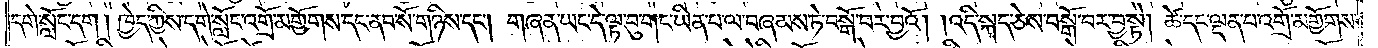དགེ་སློང་དག། ཁྱེད་ཀྱིས་དགེ་སློང་འགྲོ་མགྱོགས་དང་ནབ་སོ་གཉིས་དང༌། གཞན་ཡང་དེ་ལྟ་བུ་གང་ཡིན་པ་ལ་བཞམས་ཏེ་བསྒོ་བར་བྱའོ། །འདི་སྐད་ཅེས་བསྒོ་བར་བྱ་སྟེ། ཚེ་དང་ལྡན་པ་འགྲོ་མགྱོགས་
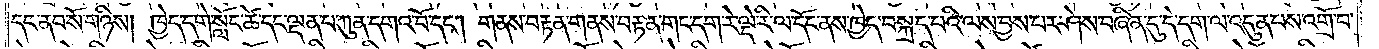དང་ནབ་སོ་གཉིས། ཁྱེད་དགེ་སློང་ཚེ་དང་ལྡན་པ་ཀུན་དགའ་བོ་དང༌། གནས་བརྟན་གནས་བརྟན་གང་དག་རེ་ལྡེ་རི་ལ་དོང་ནས་ཁྱེད་བསྐྲད་པའི་ལས་བྱས་པར་ཤེས་བཞིན་དུ་དེ་དག་ལ་འདུན་པས་འགྲོ་བ་
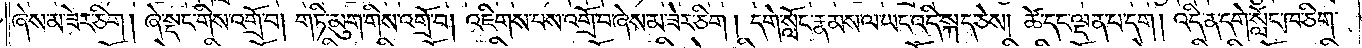ཞེས་མ་ཟེར་ཅིག །ཞེ་སྡང་གིས་འགྲོ་བ། གཏི་མུག་གིས་འགྲོ་བ། འཇིགས་པས་འགྲོ་བ་ཞེས་མ་ཟེར་ཅིག །དགེ་སློང་རྣམས་ལ་ཡང་འདི་སྐད་ཅེས། ཚེ་དང་ལྡན་པ་དག །འདི་ན་དགེ་སློང་ཁ་ཅིག་
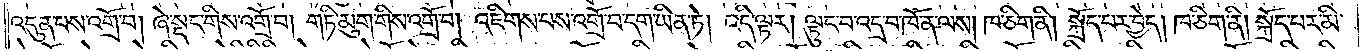འདུན་པས་འགྲོ་བ། ཞེ་སྡང་གིས་འགྲོ་བ། གཏི་མུག་གིས་འགྲོ་བ། འཇིགས་པས་འགྲོ་བ་དག་ཡིན་ཏེ། འདི་ལྟར། ལྟུང་བ་འདྲ་བ་ཁོ་ན་ལས། ཁ་ཅིག་ནི། སྐྲོད་པར་བྱེད། ཁ་ཅིག་ནི། སྐྲོད་པར་མི་
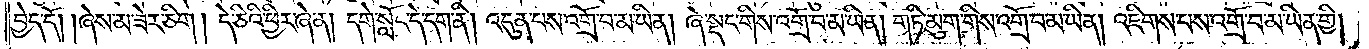བྱེད་དོ། །ཞེས་མ་ཟེར་ཅིག །དེ་ཅིའི་ཕྱིར་ཞེ་ན། དགེ་སློང་དེ་དག་ནི། འདུན་པས་འགྲོ་བ་མ་ཡིན། ཞེ་སྡང་གིས་འགྲོ་བ་མ་ཡིན། གཏི་མུག་གིས་འགྲོ་བ་མ་ཡིན། འཇིགས་པས་འགྲོ་བ་མ་ཡིན་གྱི།
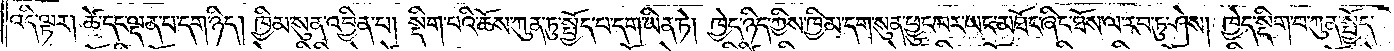འདི་ལྟར། ཚེ་དང་ལྡན་པ་དག་ཉིད། ཁྱིམ་སུན་འབྱིན་པ། སྡིག་པའི་ཆོས་ཀུན་ཏུ་སྤྱོད་པ་དག་ཡིན་ཏེ། ཁྱེད་ཉིད་ཀྱིས་ཁྱིམ་དག་སུན་ཕྱུང་བར་ཡང་མཐོང་ཞིང་ཐོས་ལ་རབ་ཏུ་ཤེས། ཁྱེད་སྡིག་པ་ཀུན་སྤྱོད་
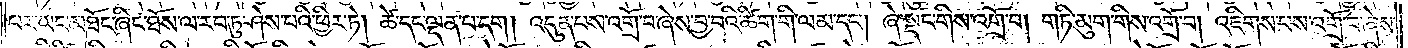པར་ཡང་མཐོང་ཞིང་ཐོས་ལ་རབ་ཏུ་ཤེས་པའི་ཕྱིར་ཏེ། ཚེ་དང་ལྡན་པ་དག། འདུན་པས་འགྲོ་བ་ཞེས་བྱ་བའི་ཚིག་གི་ལམ་དང༌། ཞེ་སྡང་གིས་འགྲོ་བ། གཏི་མུག་གིས་འགྲོ་བ། འཇིགས་པས་འགྲོ་བ་ཞེས་
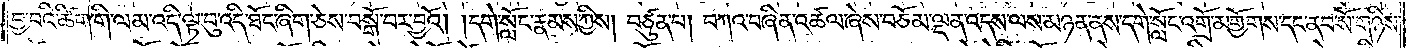བྱ་བའི་ཚིག་གི་ལམ་འདི་ལྟ་བུ་འདི་ཐོང་ཞིག་ཅེས་བསྒོ་བར་བྱའོ། །དགེ་སློང་རྣམས་ཀྱིས། བཙུན་པ། བཀའ་བཞིན་འཚལ་ཞེས་བཅོམ་ལྡན་འདས་ལས་མཉན་ནས་དགེ་སློང་འགྲོ་མགྱོགས་དང་ནབ་སོ་གཉིས་
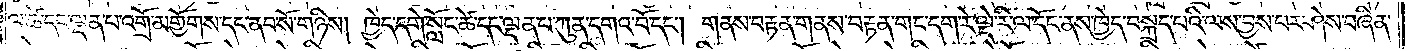ལ་ཚེ་དང་ལྡན་པ་འགྲོ་མགྱོགས་དང་ནབ་སོ་གཉིས། ཁྱེད་དགེ་སློང་ཚེ་དང་ལྡན་པ་ཀུན་དགའ་བོ་དང༌། གནས་བརྟན་གནས་བརྟན་གང་དག་རེ་ལྡེ་རི་ལ་དོང་ནས་ཁྱེད་བསྐྲད་པའི་ལས་བྱས་པར་ཤེས་བཞིན་
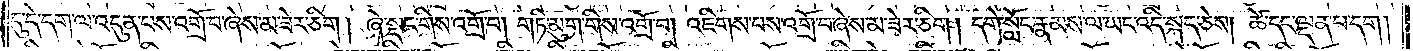དུ་དེ་དག་ལ་འདུན་པས་འགྲོ་བ་ཞེས་མ་ཟེར་ཅིག། ཞེ་སྡང་གིས་འགྲོ་བ། གཏི་མུག་གིས་འགྲོ་བ། འཇིགས་པས་འགྲོ་བ་ཞེས་མ་ཟེར་ཅིག། དགེ་སློང་རྣམས་ལ་ཡང་འདི་སྐད་ཅེས། ཚེ་དང་ལྡན་པ་དག།
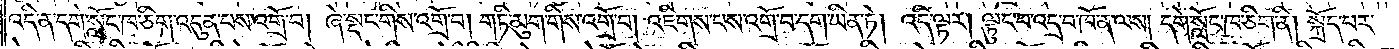འདི་ན་དགེ་སློང་ཁ་ཅིག་འདུན་པས་འགྲོ་བ། ཞེ་སྡང་གིས་འགྲོ་བ། གཏི་མུག་གིས་འགྲོ་བ། འཇིགས་པས་འགྲོ་བ་དག་ཡིན་ཏེ། འདི་ལྟར། ལྟུང་བ་འདྲ་བ་ཁོ་ན་ལས། དགེ་སློང་ཁ་ཅིག་ནི། སྐྲོད་པར་
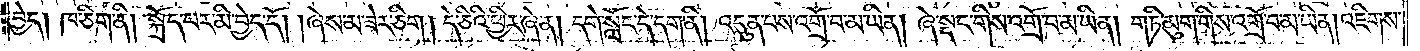བྱེད། ཁ་ཅིག་ནི། སྐྲོད་པར་མི་བྱེད་དོ། །ཞེས་མ་ཟེར་ཅིག །དེ་ཅིའི་ཕྱིར་ཞེ་ན། དགེ་སློང་དེ་དག་ནི། འདུན་པས་འགྲོ་བ་མ་ཡིན། ཞེ་སྡང་གིས་འགྲོ་བ་མ་ཡིན། གཏི་མུག་གིས་འགྲོ་བ་མ་ཡིན། འཇིགས་
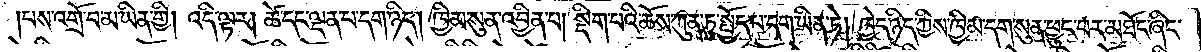པས་འགྲོ་བ་མ་ཡིན་གྱི། འདི་ལྟར། ཚེ་དང་ལྡན་པ་དག་ཉིད། ཁྱིམ་སུན་འབྱིན་པ། སྡིག་པའི་ཆོས་ཀུན་ཏུ་སྤྱོད་པ་དག་ཡིན་ཏེ། ཁྱེད་ཉིད་ཀྱིས་ཁྱིམ་དག་སུན་ཕྱུང་བར་མཐོང་ཞིང་
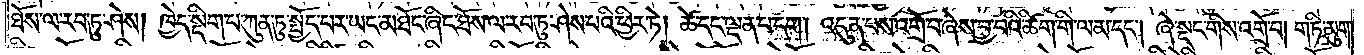ཐོས་ལ་རབ་ཏུ་ཤེས། ཁྱེད་སྡིག་པ་ཀུན་ཏུ་སྤྱོད་པར་ཡང་མཐོང་ཞིང་ཐོས་ལ་རབ་ཏུ་ཤེས་པའི་ཕྱིར་ཏེ། ཚེ་དང་ལྡན་པ་དག། འདུན་པས་འགྲོ་བ་ཞེས་བྱ་བའི་ཚིག་གི་ལམ་དང༌། ཞེ་སྡང་གིས་འགྲོ་བ། གཏི་མུག་
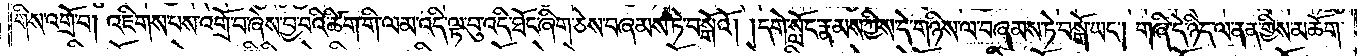གིས་འགྲོ་བ། འཇིགས་པས་འགྲོ་བ་ཞེས་བྱ་བའི་ཚིག་གི་ལམ་འདི་ལྟ་བུ་འདི་ཐོང་ཞིག་ཅེས་བཞམས་ཏེ་བསྒོའོ། །དགེ་སློང་རྣམས་ཀྱིས་དེ་གཉིས་ལ་བཞམས་ཏེ་བསྒོ་ཡང༌། གཞི་དེ་ཉིད་ལ་ནན་གྱིས་མཆོག་
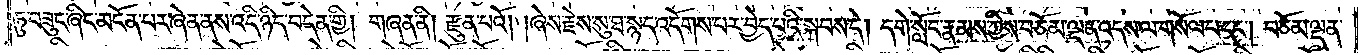ཏུ་བཟུང་ཞིང་མངོན་པར་ཞེན་ནས་འདི་ཉིད་བདེན་གྱི། གཞན་ནི། རྫུན་པའོ། །ཞེས་རྗེས་སུ་ཐ་སྙད་འདོགས་པར་བྱེད་པའི་སྐབས་དེ། དགེ་སློང་རྣམས་ཀྱིས་བཅོམ་ལྡན་འདས་ལ་གསོལ་བ་དང༌། བཅོམ་ལྡན་
